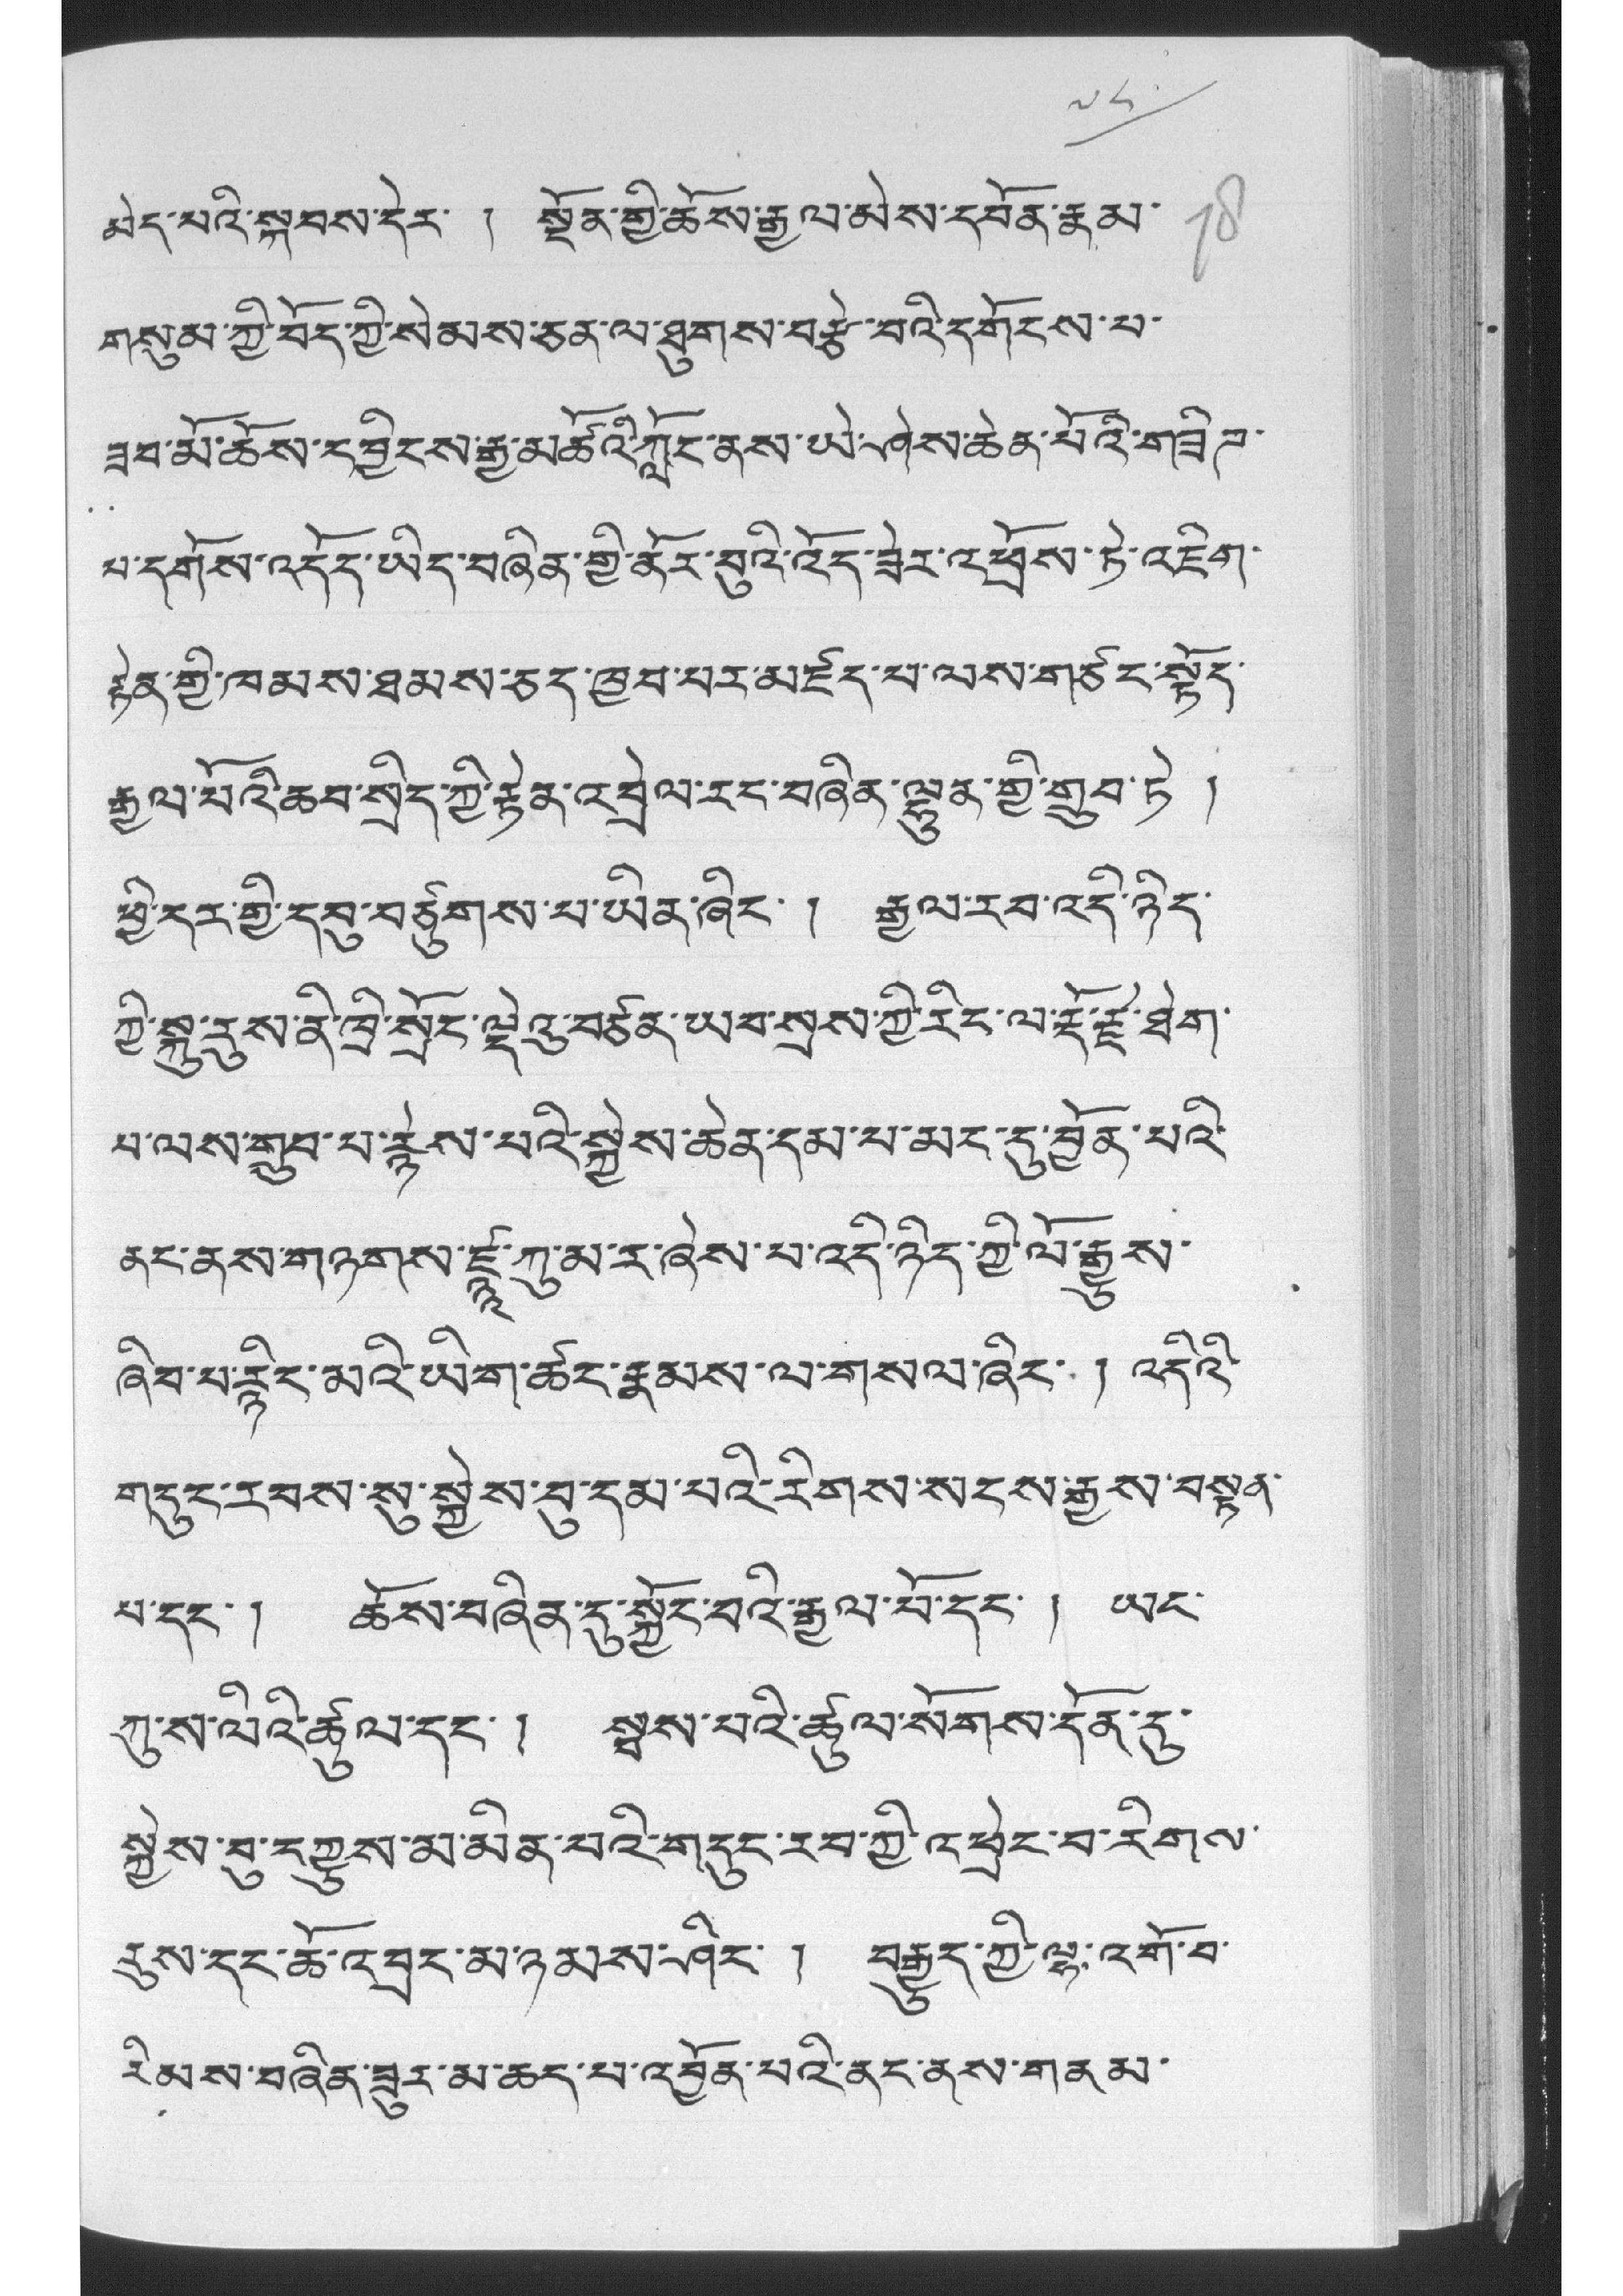༧༨
མེད་པའི་སྐབས་དེར་ ། སྔོན་གྱི་ཆོས་རྒྱལ་མེས་དབོན་རྣམ་
གསུམ་ཀྱི་བོད་ཀྱི་སེམས་ཅན་ལ་ཐུགས་བརྩེ་བའི་དགོངས་པ་
ཟབ་མོ་ཆོས་དབྱིངས་རྒྱ་མཚོའི་ཀློང་ནས་ཡེ་ཤེས་ཆེན་པོའི་གཟིཊ་
པ་དགོས་འདོད་ཡིད་བཞིན་གྱི་ནོར་བུའི་འོད་ཟེར་འཕྲོས་ཏེ་འཇིག་
རྟེན་གྱི་ཁམས་ཐམས་ཅད་ཁྱབ་པར་མཛད་པ་ལས་གཙང་སྟོད་
རྒྱལ་པོའི་ཆབ་སྲིད་ཀྱི་རྟེན་འབྲེལ་རང་བཞིན་ལྷུན་གྱི་གྲུབ་ཏེ །
ཕྱི་དར་གྱི་དབུ་བཙུགས་པ་ཡིན་ཞིང་ ། རྒྱལ་རབ་འདི་ཉིད་
ཀྱི་སྐུ་རུས་ནི་ཁྲི་སྲོང་ལྡེའུ་བཙན་ཡབ་སྲས་ཀྱི་རིང་ལ་རྡོ་རྗེ་ཐེག་
པ་ལས་གྲུབ་པ་རྙེས་པའི་སྐྱེས་ཆེན་དམ་པ་མང་དུ་བྱོན་པའི་
ནང་ནས་གཉགས་ཛྙཱ་ཀུ་མ་ར་ཞེས་པ་འདི་ཉིད་གྱི་ལོ་རྒྱུས་
ཞིབ་པ་རྙིང་མའི་ཡིག་ཚང་རྣམས་ལ་གསལ་ཞིང་ ། འདིའི་
གདུང་རབས་སུ་སྐྱེས་བུ་དམ་པའི་རིགས་སངས་རྒྱས་བསྟན་
པ་དང་། ཆོས་བཞིན་དུ་སྐྱོང་བའི་རྒྱལ་པོ་དང་། ཡང་
ཀུ་ས་ལིའི་ཚུལ་དང་། སྦས་པའི་ཚུལ་སོགས་དོན་དུ་
སྐྱེས་བུ་དཀྱུས་མ་མིན་པའི་གདུང་རབ་ཀྱི་འཕྲེང་བ་རིགས་
རུས་དང་ཚོ་འབྲང་མཉམས་ཤིང་། བརྒྱུད་ཀྱི་ལྷ་འགོ་བ་
རིམས་བཞིན་ཟུར་མ་ཆད་པ་འབྱོན་པའི་ནང་ནས་གནམ་
